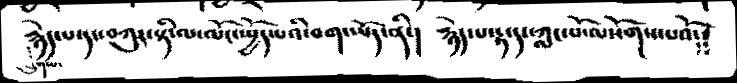རྙེད་པ་དང་བཀུར་སྟི་ལ་ལོང་སྤྱོད་པའི་བག་ཡོད་ནི་། རྙེ་པ་རྟ་དང་ཀླང་པོ་ལསོགས་པའོ༴༴
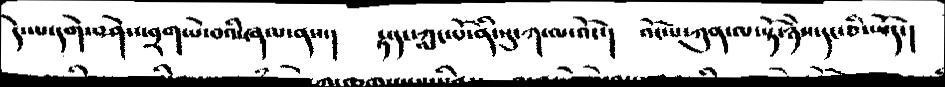དེ་ལ་དགེ་བཤེས་བྲག་པོ་བའི་ཞལ་ནས་།  རྟ་དང་ཀླང་པོ་ནི་སུ་ཀ་ལ་འོང་།  འོང་པ་ཀུན་ལ་སྟོ་ཉེས་དང་ཅི་ཡོད་།
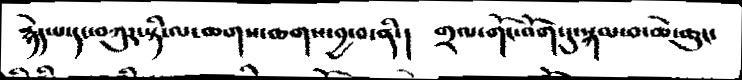རྙེད་པ་དང་བཀུར་སྟེ་ལ་ཆགས་ཆགས་བྱ་བ་ནི་།   གྲལ་གོང་འོག་དུ་སྐལ་བ་ཆེ་ཆུང་
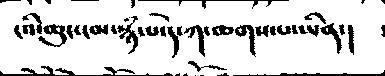ངའི་ཆུང་ངམ་སྙཾ་པ་དེ་ཀ་ཆགས་པ་ཡིན་།
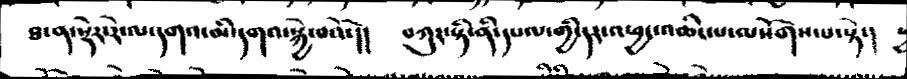ཐ་ན་སྡེར་རེ་ལ་དགའ་མི་དགའ་སྐྱེ་བའོ་།།   བཀུར་སྟི་ནི་དཔལ་གྱི་དར་འཕྱང་འཆིང་པ་ལསོགས་པ་སྟེ་།
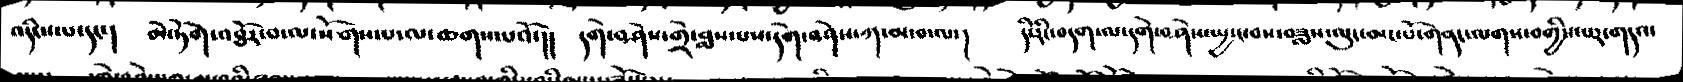འདིངས་པ་དང་།   མེ་ཏོག་འཐོར་བ་ལ་སོགས་པ་ལ་ཆགས་པའོ་།།   དགེ་བཤེས་གྲེ་བླས་པས་དགེ་བཤེས་ཀ་མ་བ་ལ་།   དི་རིང་བདག་ལ་དགེ་བཤེས་སྤྱ་ང་བས་བཟླས་ལུང་མང་པོ་གནང་ལགས་བགྱིས་པར་གདའ་
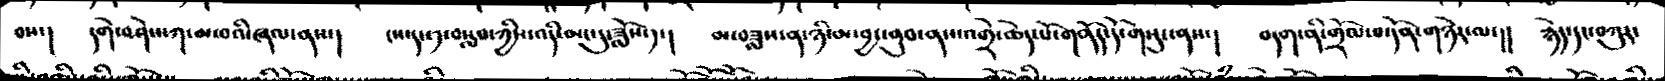བས་།  དགེ་བཤེས་ཀ་མ་བའི་ཞལ་ནས་།   ངས་དང་༡་བསླབ་ཀྱིས་འདི་མང་དུཟློས་༡་།   བ་བཟླས་ན་ཉི་མ་བྱང་ནུབ་ནས་འགྲེ་ཆེད་པོ་གནོད་དོ་གསུང་ནས་།   བདག་ནི་གྲོལབ་དོན་གཉེར་ལ་།།   རྙེད་དང་བཀུར་
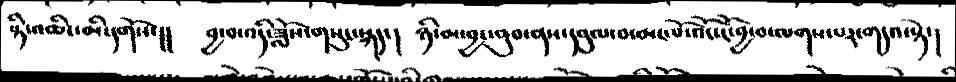སྟེ་འཆི་མ་དགོས་།།  བྱ་བ་འདི་ཟློས་གསུང་སྐད་།   ཉི་མ་བྱང་ནུབ་ནས་དབུལ་བ་མང་པོ་འོང་ངོ་བྱ་བ་ལགས་པར་གདའ་སྟེ་།
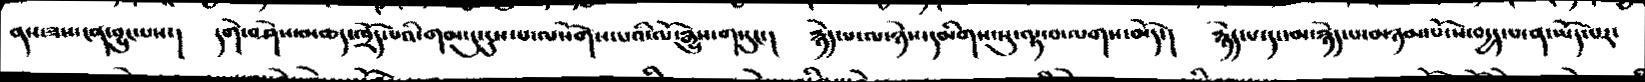ནས་ཟས་ངན་བྱུང་པས་།   དགེ་བཤེས་མཆད་ཁྲོད་པའི་གམ་དུ་རུས་པ་ལསོགས་པའི་ལོ་རྒྱུས་གསུང་།    རྙེད་པ་ལ་ཉེས་པ་དམིགས་སུ་ལྟ་བ་ལགས་མོད་།   རྙེད་པ་དང་མ་རྙེད་པ་མཉམ་པོ་ས་བདྱད་པ་ན་ཡོད་པར་
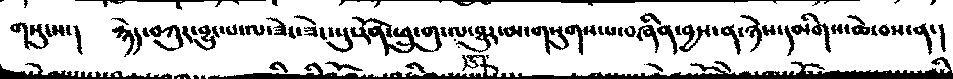གསུངས་།    རྙེད་བཀུར་བྱུང་པ་ལ་ཟེང་ཟེང་སུ་རོན་ཕྲུ་གུ་དབྱུག་ལ་ཐུར་མ་གཡུགས་པ་བཞིན་བྱས་ན་ཉེས་དམིགས་ཆེ་བས་ན་།
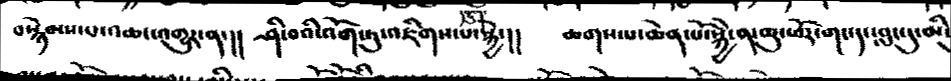བསྙེམས་པ་འཆང་འགྱུར་ན་།།   ཤི་བའི་འོག་ཏུ་འཇིགས་པ་སྐྱེ་།།   ཆགས་པ་ཆེན་པོ་སྐྱེ་ན་ཆུ་ཕོར་གང་དང་བླང་དུ་མི་
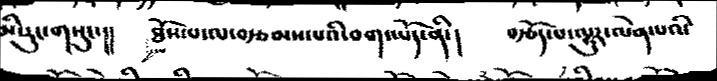མི་རུང་གསུང་།།  བྱ་བ་ཐོས་པ་ལ་བརྩམས་པའི་བག་ཡོད་ནི་།   བརྩོད་པ་ལྷུར་ལེན་པའི་
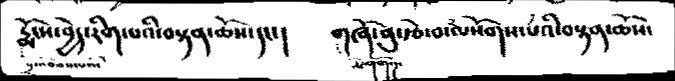རྨོངས་བྱེདད་རིག་པའི་བསྟན་ཆོས་དང་།  གཞོ་ནུ་རྩེ་བ་༢་ལསོགས་༡་པའི་བསྟན་ཆོས་
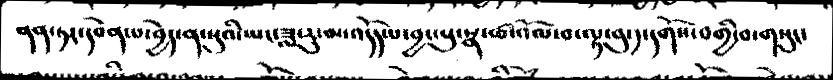ནན་ཏར་དབེན་པ་བྱེད་ན་སུའི་ཡང་ཟླ་རུ་མ་འདོད་པ་བྱ་པུ་སྣ་ཚ་འོལ་བ་ལྟ་བུ་༡་དགོས་བགྱི་བ་གསུང་
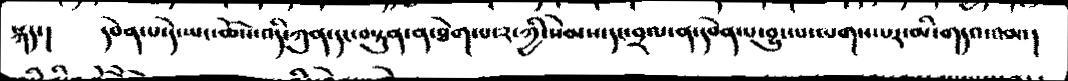སྐད་།    དབེན་པ་དེ་ཡང་ཆོས་འདི་ཀུན་དང་བསྟུན་ན་ཐེག་པ་༢་ཀྱི་སེམས་དང་བྲལ་ན་དབེན་པ་བྱུང་པ་ལགས་པར་མི་གདའ་འམ་།
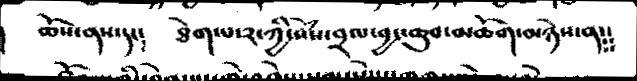ཆོས་ནས་དང༴   ཐེག་པ་༢་ཀྱི་སེཾས་བྲལ་བྱང་ཆུབ་མཆོག་མཉེས་ན༴༴
